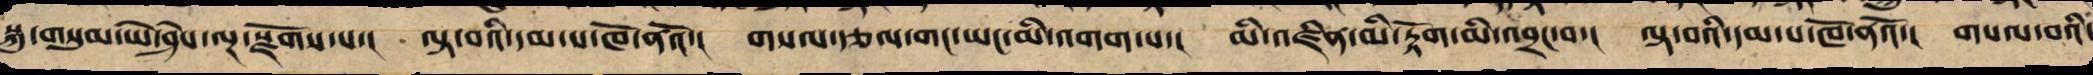སྐུ་གསུམ་ཡེ་ཤེས་ལྔ་སྫོགས་པ་། ལྟ་བའི་དམ་པ་ཁོ་ནའོ་། གསལ་རྩལ་གང་ཡང་མི་འགག་པ་། མི་འཛིན་མི་རྟོག་མི་འབྲང་བ་། ལྟ་བའི་དམ་པ་ཁོ་ནའོ་། གསལ་བའི་
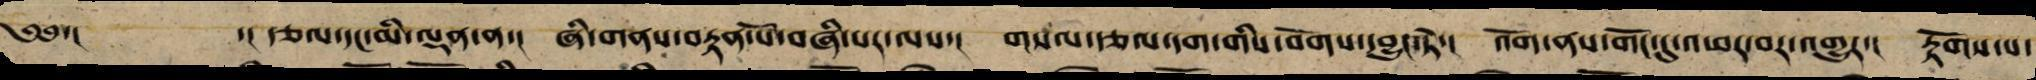༄༅་།  ་། རྩལ་དང་མི་ལྡན་ན་། ཞི་གནས་བརྟན་པོ་ཞི་བ་ལས་། གསལ་རྩལ་དག་གིས་བོགས་དབྱུང་ཏེ་། འོག་ནས་གོང་དུ་འཕར་བར་འགྱུར་། རྟོགས་པ་
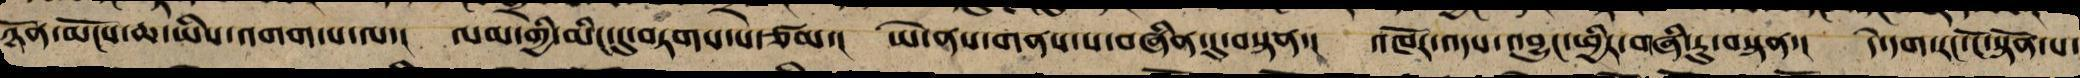ཉོན་མོངས་ཆ་ཡིས་འགག་པ་ལ་། ལམ་གྱི་མིང་དུ་བཏགས་པ་ཙམ་། ཡེ་ནས་གནས་པས་གཞི་རུ་བསྟན་། འཁོར་འདས་འབྱུང་ཕྱིར་གཞི་རུ་བསྟན་། དེ་དག་རང་ངོ་སྟོན་པ་
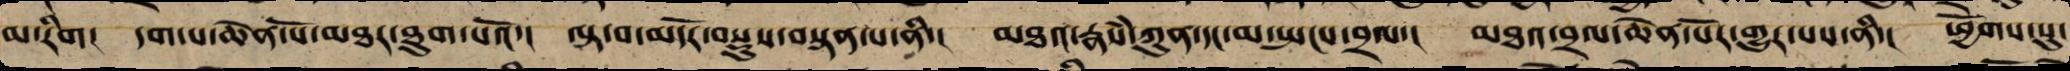མར་རིག། དག་པ་ཆེན་པོའི་མཐར་ཐུག་པའོ་། ལྟ་བ་མདོར་བསྡུས་བསྟན་པ་ནི་། མཐའ་རྣཾས་ཀུན་དང་མ་སྤངས་བྲལ་། མཐའ་བྲལ་ཆེན་པོར་གྱུར་པས་ནི་། ཕྱོགས་སུ་
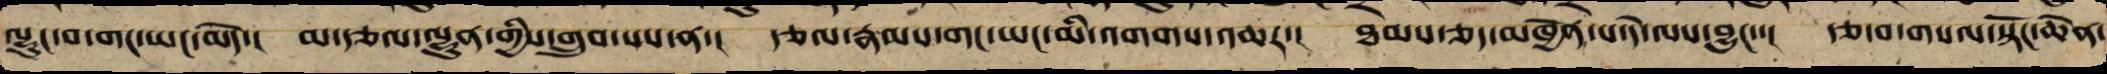ལྷུང་བ་གང་ཡང་མེད་། མ་རྩལ་ལྷུན་གྱིས་གྲུབ་པས་ན་། རྩལ་རྣམས་གང་ཡང་མི་འགགས་འཆར་། ཐམས་ཅད་མཁྱེན་པ་དེ་ལས་བྱུང་་། རྩ་བ་གསལ་སྟོང་ཆེན་
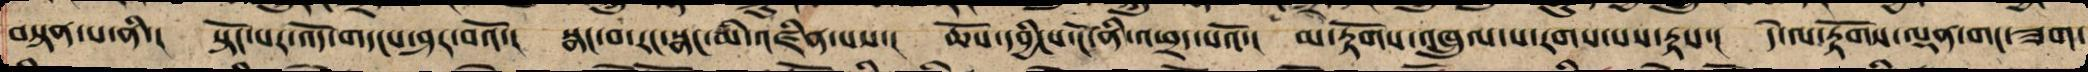བསྟན་པ་ནི་། སྟོང་པར་འོད་གདངས་ཤར་བའོ་། སྣང་བ་རང་སྣང་མི་འཛིན་པས་། ཆོས་དབྱིངས་ངོ་ནི་འཕྲད་པའོ་། མ་རྟོགས་འཁྲུལ་པར་རགས་པར་རྟས་། དེ་ལ་རྟོགས་ལྡན་གང་ཟག་
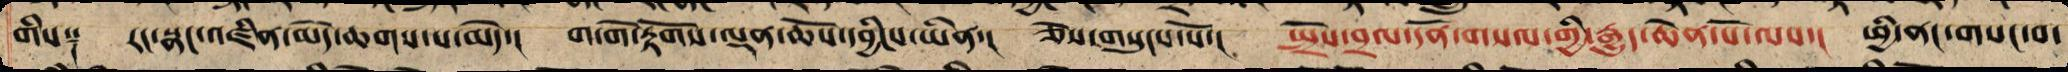གིས༑ རང་སྣང་འཛིན་མེད་ཆགས་པ་མེད་། གང་གེ་རྟོགས་ལྡན་ཆོས་དབྱིངས་ཡིན་། ཅེས་གསུངས་སོ་། སྤྲོས་བྲལ་དོན་གསལ་གྱི་རྒྱུད་ཆེན་པོ་ལས་། ཕྱི་ནང་གསང་བ་
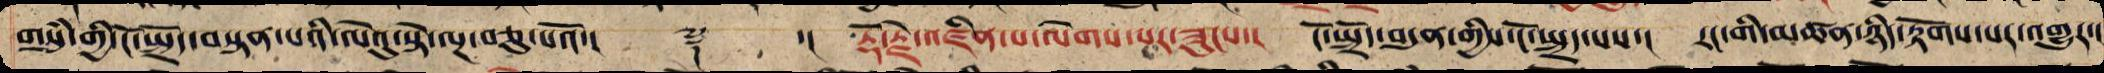གསུཾ་གྱི་ངོ་སྤྲོད་བསྟན་པའི་ལེའུ་སྟེ་ལྔ་བཅུ་པའོ་།། ༈ ་།། རྡོ་རྗེ་འཛིན་པ་ལེགས་པར་ཟུངས་། ངོ་སྤྲོད་བདུན་གྱིས་ངོ་སྤྲད་པས་། རང་གི་མཚན་ཉིད་རྟོགས་པར་འགྱུར་།
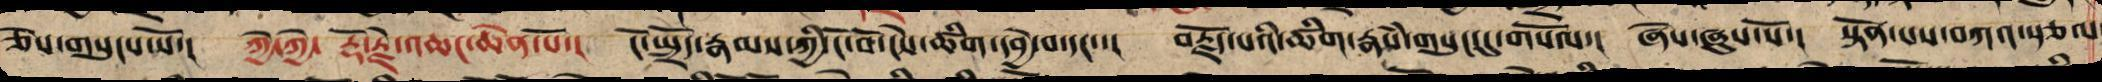ཅེས་གསུངས་སོ་། ཀྱེ་ཀྱེ་ རྡོ་རྗེ་འཆང་ཆེན་པོ་། ངོ་སྤྲོད་རྣམས་ཀྱི་ངོ་བོ་ངེས་ཚིག་དབྱེ་བ་དང་་། བརྗོད་པའི་ཚིག་རྣཾས་གསུང་དུ་གསོལ་། ཞེས་ཞུས་སོ་། སྟོན་པས་བཀའ་སྩལ
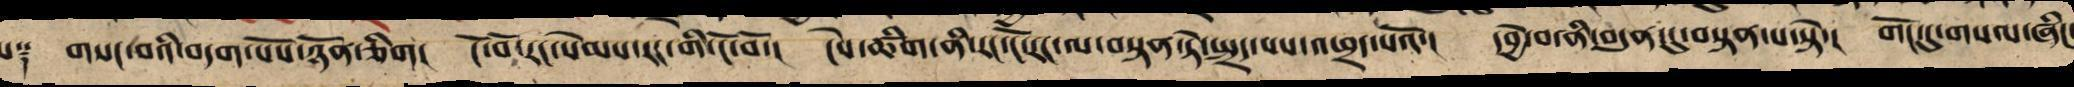པ༑ གསང་བའི་བདག་པོ་ཉོན་ཅིག། ངོ་བོ་ནི་རང་སེམས་རང་གི་ངོ་བོ་། ངེས་ཚིག་ནི་རང་ངོ་རང་ལ་བསྟན་ཏེ་སྤྲད་པས་འཕྲད་པའོ་། དབྱེ་བ་ནི་བདུན་དུ་བསྟན་པ་སྟེ་། གོང་དུ་གསལ་ཞིང་
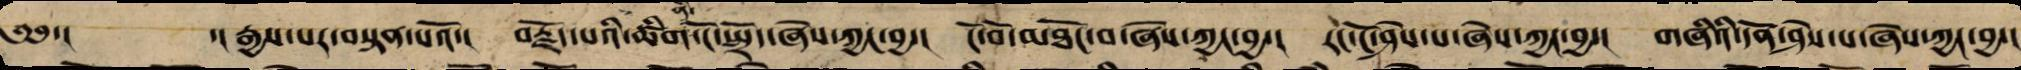༄༅་།  ་།རྒྱས་པར་བསྟན་པའོ་། བརྗོད་པའི་ཚིག་ནི་ངོ་སྤྲོད་ཅེས་ཀྱང་བྱ་། ངོ་བོ་མཐོང་བ་ཞེས་ཀྱང་བྱ་། རང་ངོ་ཤེས་པ་ཞེས་ཀྱང་བྱ་། གཞིའི་དོན་ཤེས་པ་ཞེས་ཀྱང་བྱ་།
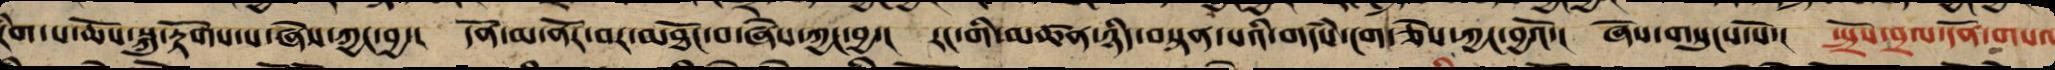རིག་པ་ཆོས་སྐུར་རྟོགས་པ་ཞེས་ཀྱང་བྱ་། དོན་མ་ནོར་བར་མཐོང་བ་ཞེས་ཀྱང་བྱ་། རང་གི་མཚན་ཉིད་བསྟན་པའི་གདཾས་ངག་ཅེས་ཀྱང་བྱའོ་། ཞེས་གསུངས་སོ་། སྤྲོས་བྲལ་དོན་གསལ་
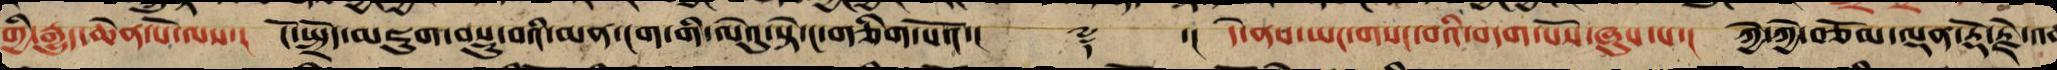གྱི་རྒྱུད་ཆེན་པོ་ལས་། ངོ་སྤྲོད་མཇུག་བསྡུ་བའི་མན་ངག་གི་ལེའུ་སྟེ་ང་གཅིག་པའོ་།། ༈ ་།། དེ་ནས་ཡང་གསང་བའི་བདག་པོས་ཞུས་པ་། ཀྱེ་ཀྱེ་བཅོམ་ལྡན་རྡོ་རྗེ་འཆ
